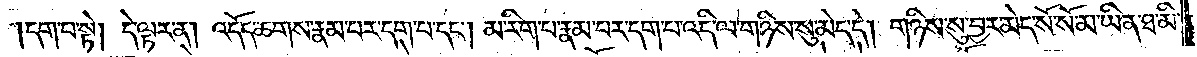དག་པ་སྟེ། དེ་ལྟར་ན། འདོད་ཆགས་རྣམ་པར་དག་པ་དང༌། མ་རིག་པ་རྣམ་པར་དག་པ་འདི་ལ་གཉིས་སུ་མེད་དེ། གཉིས་སུ་བྱར་མེད་སོ་སོ་མ་ཡིན་ཐ་མི་
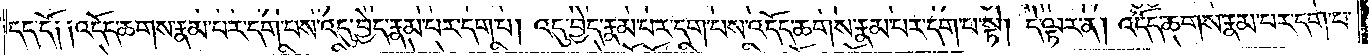དད་དོ༑ ༑འདོད་ཆགས་རྣམ་པར་དག་པས་འདུ་བྱེད་རྣམ་པར་དག་པ། འདུ་བྱེད་རྣམ་པར་དག་པས་འདོད་ཆགས་རྣམ་པར་དག་པ་སྟེ། དེ་ལྟར་ན། འདོད་ཆགས་རྣམ་པར་དག་པ་
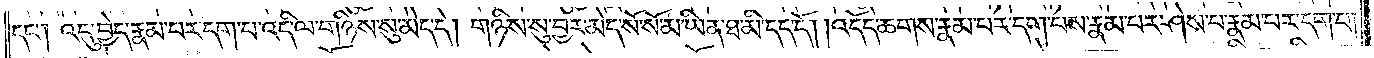དང༌། འདུ་བྱེད་རྣམ་པར་དག་པ་འདི་ལ་གཉིས་སུ་མེད་དེ། གཉིས་སུ་བྱར་མེད་སོ་སོ་མ་ཡིན་ཐ་མི་དད་དོ། །འདོད་ཆགས་རྣམ་པར་དག་པས་རྣམ་པར་ཤེས་པ་རྣམ་པར་དག་པ།
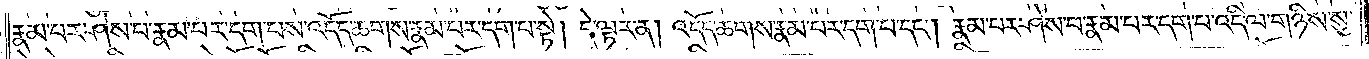རྣམ་པར་ཤེས་པ་རྣམ་པར་དག་པས་འདོད་ཆགས་རྣམ་པར་དག་པ་སྟེ། དེ་ལྟར་ན། འདོད་ཆགས་རྣམ་པར་དག་པ་དང༌། རྣམ་པར་ཤེས་པ་རྣམ་པར་དག་པ་འདི་ལ་གཉིས་སུ་
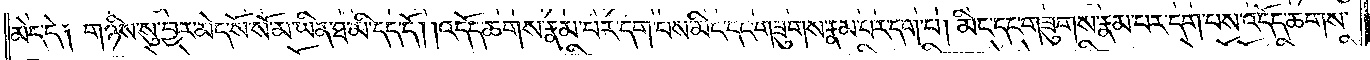མེད་དེ༑ གཉིས་སུ་བྱར་མེད་སོ་སོ་མ་ཡིན་ཐ་མི་དད་དོ། །འདོད་ཆགས་རྣམ་པར་དག་པས་མིང་དང་གཟུགས་རྣམ་པར་དག་པ། མིང་དང་གཟུགས་རྣམ་པར་དག་པས་འདོད་ཆགས་
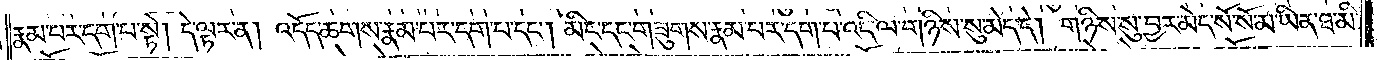རྣམ་པར་དག་པ་སྟེ། དེ་ལྟར་ན། འདོད་ཆགས་རྣམ་པར་དག་པ་དང༌། མིང་དང་གཟུགས་རྣམ་པར་དག་པ་འདི་ལ་གཉིས་སུ་མེད་དེ། གཉིས་སུ་བྱར་མེད་སོ་སོ་མ་ཡིན་ཐ་མི་
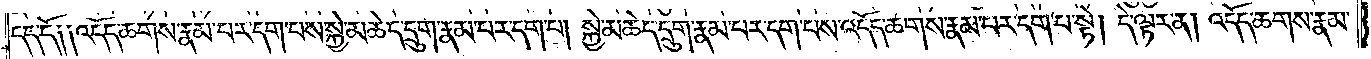དད་དོ༑ ༑འདོད་ཆགས་རྣམ་པར་དག་པས་སྐྱེ་མཆེད་དྲུག་རྣམ་པར་དག་པ། སྐྱེ་མཆེད་དྲུག་རྣམ་པར་དག་པས་འདོད་ཆགས་རྣམ་པར་དག་པ་སྟེ། དེ་ལྟར་ན། འདོད་ཆགས་རྣམ་
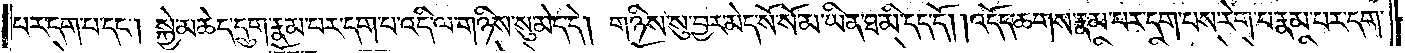པར་དག་པ་དང༌། སྐྱེ་མཆེད་དྲུག་རྣམ་པར་དག་པ་འདི་ལ་གཉིས་སུ་མེད་དེ། གཉིས་སུ་བྱར་མེད་སོ་སོ་མ་ཡིན་ཐ་མི་དད་དོ། །འདོད་ཆགས་རྣམ་པར་དག་པས་རེག་པ་རྣམ་པར་དག་
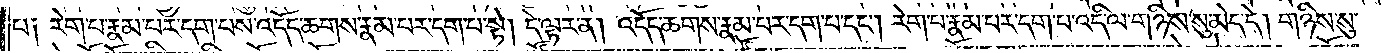པ༑ རེག་པ་རྣམ་པར་དག་པས་འདོད་ཆགས་རྣམ་པར་དག་པ་སྟེ། དེ་ལྟར་ན། འདོད་ཆགས་རྣམ་པར་དག་པ་དང༌། རེག་པ་རྣམ་པར་དག་པ་འདི་ལ་གཉིས་སུ་མེད་དེ། གཉིས་སུ་
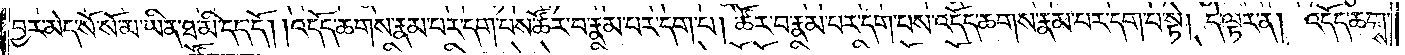བྱར་མེད་སོ་སོ་མ་ཡིན་ཐ་མི་དད་དོ། །འདོད་ཆགས་རྣམ་པར་དག་པས་ཚོར་བ་རྣམ་པར་དག་པ། ཚོར་བ་རྣམ་པར་དག་པས་འདོད་ཆགས་རྣམ་པར་དག་པ་སྟེ། དེ་ལྟར་ན། འདོད་ཆགས་
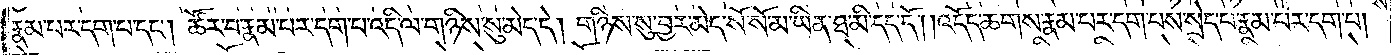རྣམ་པར་དག་པ་དང༌། ཚོར་བ་རྣམ་པར་དག་པ་འདི་ལ་གཉིས་སུ་མེད་དེ། གཉིས་སུ་བྱར་མེད་སོ་སོ་མ་ཡིན་ཐ་མི་དད་དོ། །འདོད་ཆགས་རྣམ་པར་དག་པས་སྲེད་པ་རྣམ་པར་དག་པ།
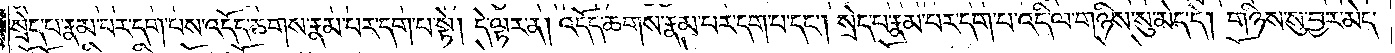སྲེད་པ་རྣམ་པར་དག་པས་འདོད་ཆགས་རྣམ་པར་དག་པ་སྟེ། དེ་ལྟར་ན། འདོད་ཆགས་རྣམ་པར་དག་པ་དང༌། སྲེད་པ་རྣམ་པར་དག་པ་འདི་ལ་གཉིས་སུ་མེད་དེ། གཉིས་སུ་བྱར་མེད་
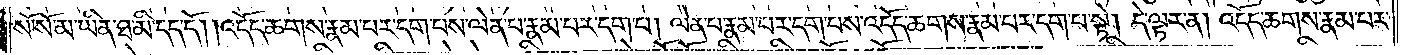སོ་སོ་མ་ཡིན་ཐ་མི་དད་དོ། །འདོད་ཆགས་རྣམ་པར་དག་པས་ལེན་པ་རྣམ་པར་དག་པ། ལེན་པ་རྣམ་པར་དག་པས་འདོད་ཆགས་རྣམ་པར་དག་པ་སྟེ། དེ་ལྟར་ན། འདོད་ཆགས་རྣམ་པར་
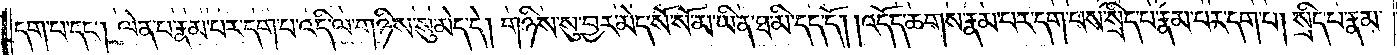དག་པ་དང༌། ལེན་པ་རྣམ་པར་དག་པ་འདི་ལ་གཉིས་སུ་མེད་དེ། གཉིས་སུ་བྱར་མེད་སོ་སོ་མ་ཡིན་ཐ་མི་དད་དོ། །འདོད་ཆགས་རྣམ་པར་དག་པས་སྲིད་པ་རྣམ་པར་དག་པ། སྲིད་པ་རྣམ་
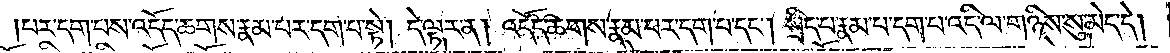པར་དག་པས་འདོད་ཆགས་རྣམ་པར་དག་པ་སྟེ། དེ་ལྟར་ན། འདོད་ཆགས་རྣམ་པར་དག་པ་དང༌། སྲིད་པ་རྣམ་པར་དག་པ་འདི་ལ་གཉིས་སུ་མེད་དེ།
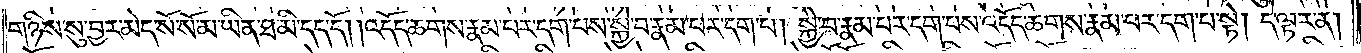གཉིས་སུ་བྱར་མེད་སོ་སོ་མ་ཡིན་ཐ་མི་དད་དོ། །འདོད་ཆགས་རྣམ་པར་དག་པས་སྐྱེ་བ་རྣམ་པར་དག་པ། སྐྱེ་བ་རྣམ་པར་དག་པས་འདོད་ཆགས་རྣམ་པར་དག་པ་སྟེ། དེ་ལྟར་ན།
